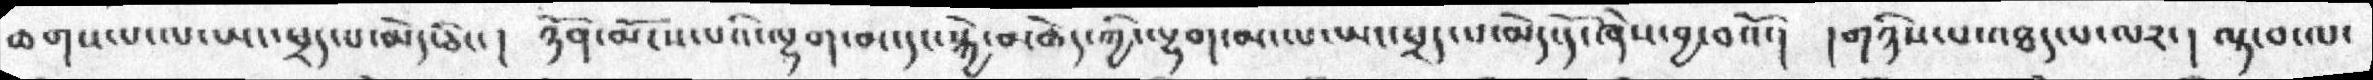ཆགས་པ་ལ་ཡང་ཕྲད་པ་མེད་ཅིང་། ཉོན་མོངས་པའི་ལྷག་མ་དང་སྐྱེ་མཆེད་ཀྱི་ལྷག་མ་ལ་ཡང་ཕྲད་པ་མེད་དོ་ཞེས་བྱ་བའོ་།  །གཉིས་པ་འཐད་པ་ལ༢་། ལྟ་བ་ལ་
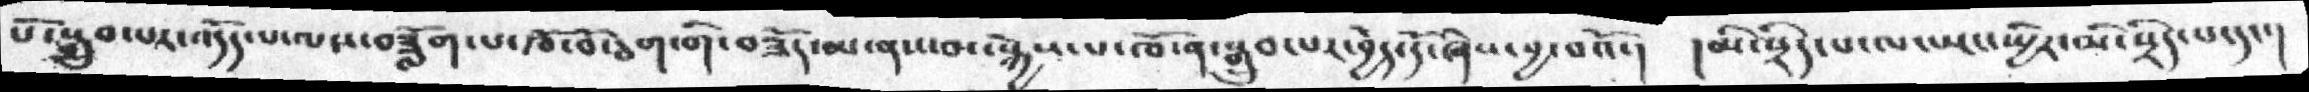པོ་སྒྲུབ་པར་འོདད་པ་ལས་བཟློག་པ་ཁོ་བོ་ཅག་གི་བཟོད་མ་ནས་མ་སྐྱེས་པ་ཁོ་ན་སྒྲུབ་པར་བྱེད་དོ་ཞེས་བྱ་བའོ་། །མི་སྲིད་པ་ལ་ཡང་སྤྱིར་མི་སྲིད་པ་དང་།
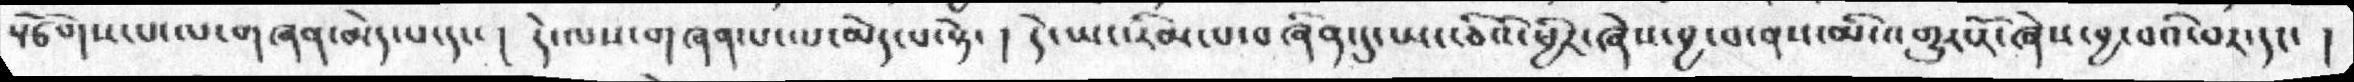སྩོགས་པ་ལ་གཞན་མེད་པ་དང་། དེ་ལས་གཞན་པ་ལ་མེད་པ་སྟེ་། དེ་ཡང་རིམ་པ་བཞིན་དུ་ཡང་ཅིའི་ཕྱིར་ཞེས་བྱ་བ་ནས་མི་འགྱུར་རོ་ཞེས་བྱ་བའི་བར་དང་ །
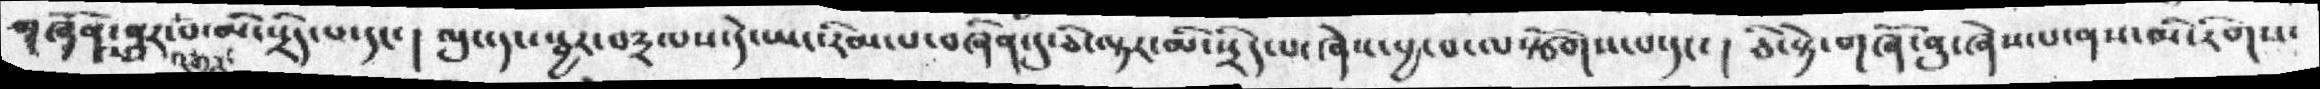གཞོན་ནུར་པ་མི་སྲིད་པ་དང་།  ལུང་དང་སྦྱར་བཀྲ་པས་དེ་ཡང་རིམ་པ་བཞིན་དུ་ཅི་ལྟར་མི་སྲིད་པ་ཞེས་བྱ་ལསྩོགས་པ་དང་།  ཅི་སྟེ་གཞོ་ནུ་ཞེས་པ་ནས་མི་རིགས་
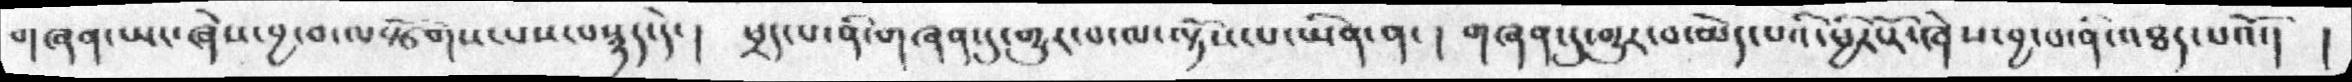གཞན་ཡང་ཞེས་བྱ་བ་ལསྩོགས་པས་བསྙད་དེ་། ཕྲད་པ་ནི་གཞན་དུ་གྱུར་པ་ལ་ལྟོས་པ་ཡིན་ན་། གཞན་དུ་གྱུར་བ་མེད་པའི་ཕྱིར་རོ་ཞེས་བྱ་བ་ནི་འཐད་པའོ་། །
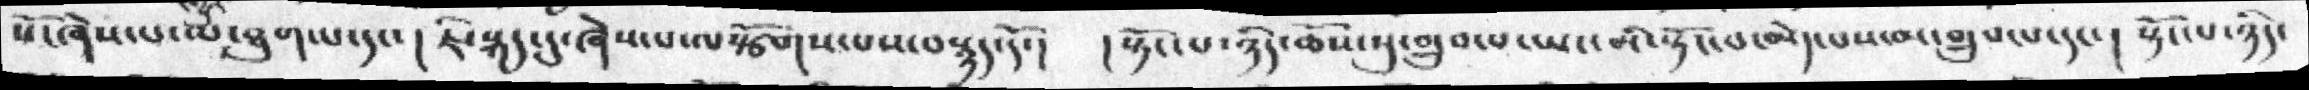སོ་ཞེས་པ་ལ་ཐུག་པདང་།  ཇི་སྐད་དུ་ཞེས་པ་ལསྩོགས་པས་བསྙད་དོ་།   ། སྟོང་པ་ཉིད་ཆོས་སུ་གྲུབ་པ་ཡང་མི་སྟོང་པ་མེད་པས་མ་གྲུབ་པ་དང་།  སྟོང་པ་ཉིད་
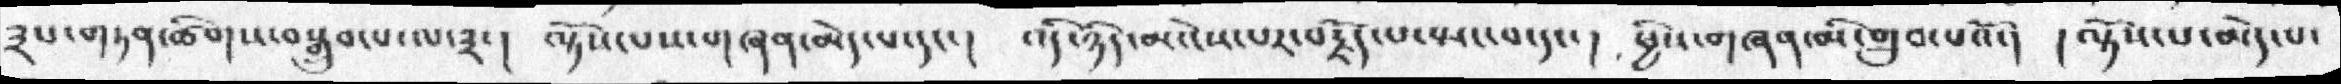༣པ་གཏན་ཚིགས་བསྒྲུབ་པ་ལ༣་།   ལྟོས་པས་གཞན་མེད་པ་དང་།     འདི་ཉིད་མ་ངེས་པར་བརྗོད་པ་སྤང་བ་དང་།   ཕྱིས་གཞན་མི་གྲུབ་པའོ་།     །ལྟོས་པ་མེད་པ་
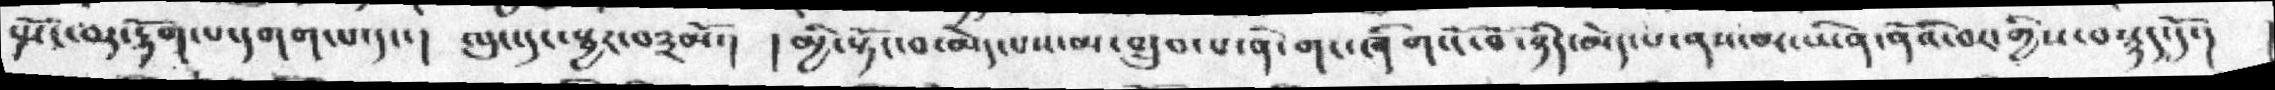སྤོང་བར་རྟོག་པ་དགག་པ་དང་།   ལུང་དང་སྦྱར་བ༣མོ་།   །མྱི་སྟོང་བ་མེད་པས་མ་གྲུབ་པ་ནི་གང་ཞིག་ངོ་བོ་ཉིད་མེད་པ་ནས་བར་ཡིན་ནོའི་བར་གྱིས་བསྙད་དོ་།
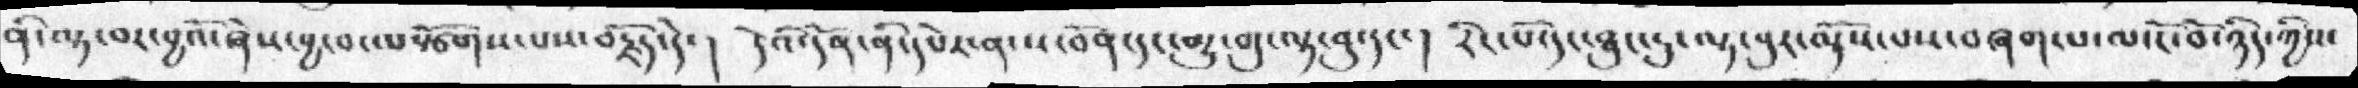ནི་ལྟ་བར་བྱའོ་ཞེས་བྱ་བ་ལསྩོགས་པས་བརྗོད་དེ་  ། དེའི་དོན་ནི་དཔེར་ན་ས་བོན་དང་མྱུ་གུ་ལྟ་བུ་དང་།   རང་པོ་དང་ཐུང་ངུ་ལྟ་བུར་ལྟོས་པས་བཞག་པ་ལ་ངོ་བོ་ཉིད་ཀྱིས་
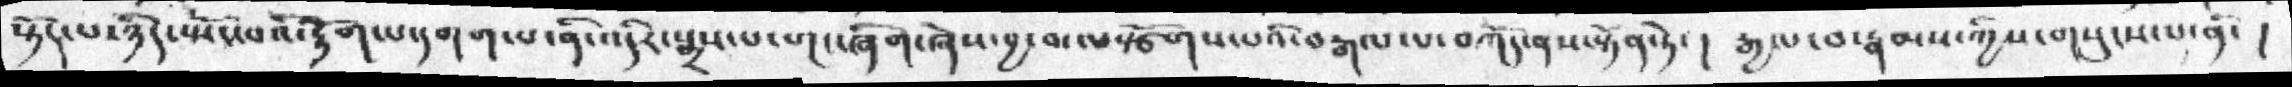སྟོང་པ་ཉིད་སྤོང་པའི་རྟོག་པ་དགག་པ་ནི་འདིར་སྒྲས་པ་གང་ཞིག་ཞེས་བྱ་བ་ལསྩོགས་པའི་བརྒལ་པ་བཀོད་ནས་སྟོན་ཏེ་    །   རྒྱལ་བ་རྣམས་ཀྱིས་གསུངས་པ་ནི་    །
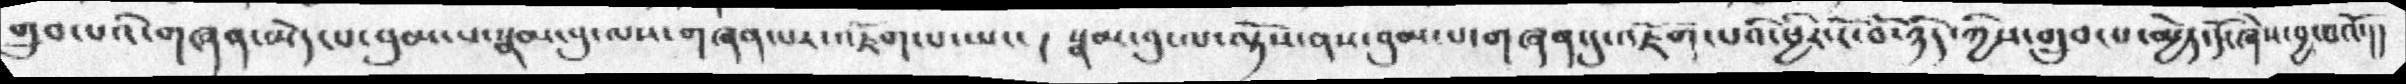གྲུབ་པའི་གཞན་མེད་པ་བུམ་པ་སྣམ་བུ་ལས་གཞན་པར་འཇོག་པ་ཡང་    ། སྣམ་བུ་ལ་ལྟོས་ནས་བུམ་པ་གཞན་དུ་འཇོག་པའི་ཕྱིར་ངོ་བོ་ཉིད་ཀྱིས་གྲུབ་པ་མྱེད་དོ་ཞེས་བྱ་བའོ་།།
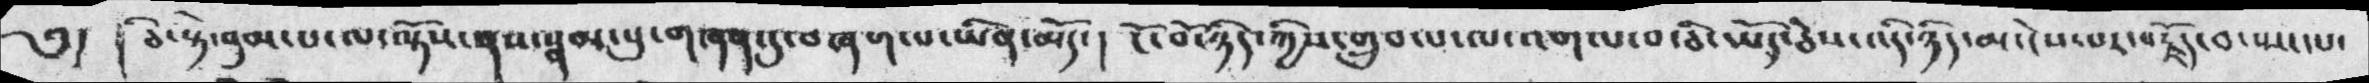༄། ། ཅི་སྟེ་བུམ་པ་ལ་ལྟོས་ནས་སྣམ་པུ་གཞན་དུ་བཞག་པ་ཡིན་མོད་།  ངོ་བོ་ཉིད་ཀྱིས་གྲུབ་པ་ལ་འགལ་བ་ཅི་ཡོད་ཅེས་འདི་ཉིད་མ་ངེས་པར་བརྗོད་པ་སྤང་པ་
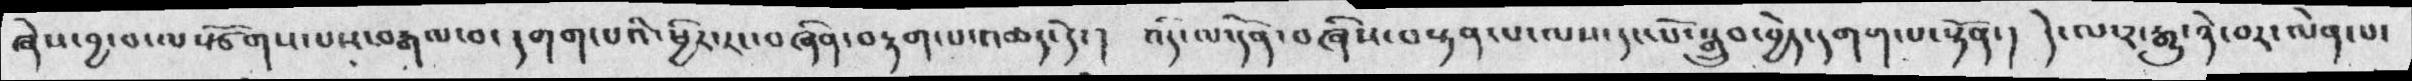ཞེས་བྱ་བ་ལསྩོགས་པས་བརྒལ་བ་དགག་པའི་ཕྱིར་རང་བཞིན་བརྟག་པ་འཆད་དེ་།  འདི་ལ་དོན་བཞིས་བསྟན་པ་ལས་དང་པོ་སྒྲུབ་བྱེད་དགག་པ་སྟོན་།  དེ་ལ་༢་རྒྱུ་ཉེ་བར་ལེན་པ་
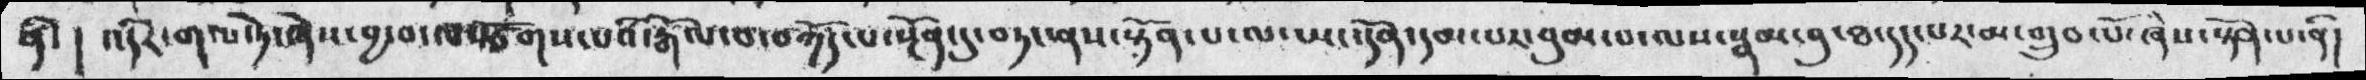ནི་། འདིར་གལ་ཏེ་ཞེས་བྱ་བ་ལསྩོགས་པའི་རྒོལ་བ་བཀོད་པ་སྔོན་དུ་བཏང་ནས་སྟོན་པ་ལ་ཡང་དོན་དམ་པར་བུམ་པ་ལས་སྣམ་བུ་ཐ་དད་པར་མ་གྲུབ་པོ་ཞེས་སྟོན་པ་ནི།
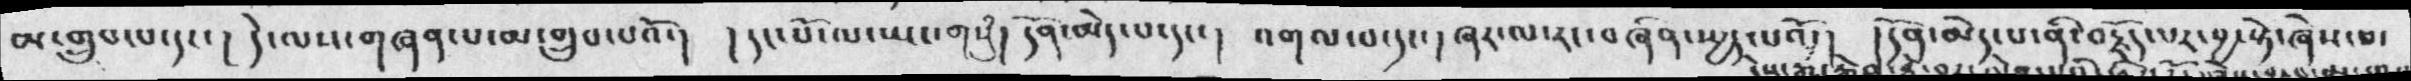མ་གྲུབ་པ་དང་།  དེ་ལས་གཞན་པ་མ་གྲུབ་པའོ་།  ། དང་པོ་ལ་ཡང་གསུཾ།  དོན་མེ་པ་དང་།  འགལ་བ་དང་།  ཞར་ལ་རང་བཞིན་སྤྱད་པའོ།།    །དོན་མེད་པ་ནི་བརྗོད་པར་བྱ་སྟེ་ཞེས་པ་
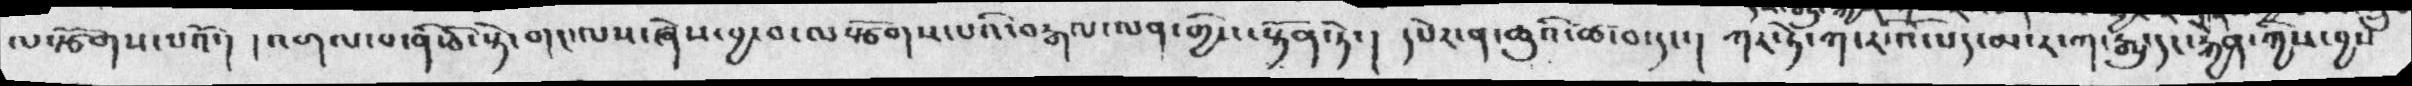ལསྩོགས་པའོ་།  ། འགལ་པ་ནི་ཅི་སྟེ་གང་ལས་ཞེས་བྱ་བ་ལསྩོགས་པའི་བརྒལ་ལན་གྱིས་སྟོན་ཏེ་།  དཔེར་ན་ཆུའི་ཚ་བ་དང་།  ཀར་ཏེ་ཀ་ར་འོ་པད་མ་ར་ཀ་རྒྱུ་དང་རྐྱེན་ཀྱིས་བྱས
